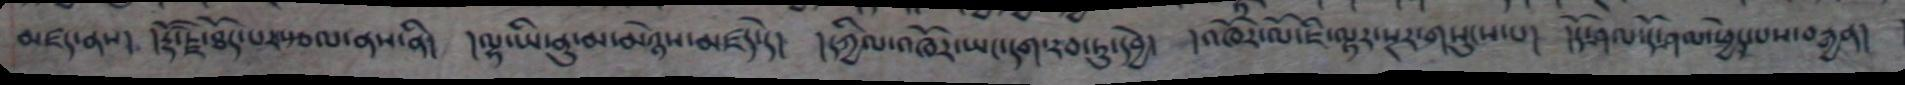མཛད་ནས། །རྡོ་རྗེ་ཐོད་པར་སྩལ་ནས་ནི། །ལྷ་ཡི་ནུ་མ་མཉེས་མཛད་དེ། །དཀྱིལ་འཁོར་ཡང་དག་རབ་ཏུ་དབྱེ། །འཁོར་ལོ་ཇི་ལྟར་སྔར་གསུངས་པ། །དོ་ཤལ་དོ་ཤལ་ཕྱེད་པས་བརྒྱན།
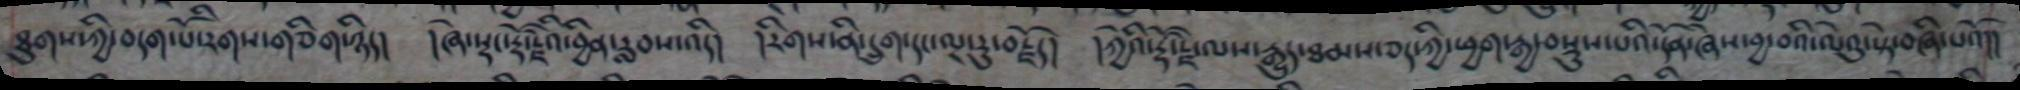ཐུགས་ཀྱི་བདག་པོ་རིགས་གཅིག་ཉིད། །ཞེ་སྡང་རྡོ་རྗེའི་བྱིན་རླབས་འདི། །རིགས་ནི་དྲུག་དང་ལྔ་རུ་བརྗོད། །ཀྱེའི་རྡོ་རྗེ་ལས་རྒྱུད་ཐམས་ཅད་ཀྱི་ཕྱག་རྒྱ་བསྡུས་པའི་དོན་ཞེས་བྱ་བའི་ལེའུ་སྟེ་བཞི་པའོ།།
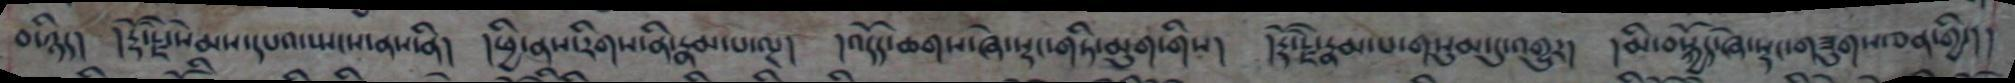བ་ཉིད། །རྡོ་རྗེ་སེམས་དཔའ་སྤངས་ནས་ནི། །ཕྱི་ནས་རིགས་ནི་རྣམ་པ་ལྔ། །འདོད་ཆགས་ཞེ་སྡང་གཏི་མུག་གིས། །རྡོ་རྗེ་རྣམ་པ་གསུམ་དུ་འགྱུར། །མི་བསྐྱོད་ཞེ་སྡང་གཟུགས་ཅན་གྱི་།།
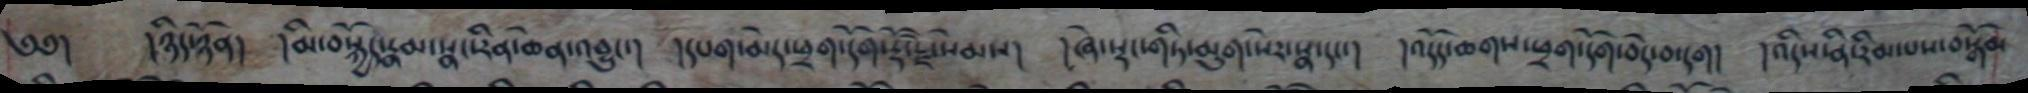༄༅། །ཉིད་ཉོན། །མི་བསྐྱོད་རྣམ་སྣང་རིན་ཆེན་འབྱུང་། །དཔག་མེད་ཕྲག་དོག་རྡོ་རྗེ་སེམས། །ཞེ་སྡང་གཏི་མུག་སེར་སྣ་དང་། །འདོད་ཆགས་ཕྲག་དོག་བདེ་བ་དག། །འདིས་ནི་རིམ་པས་བསྒོམ
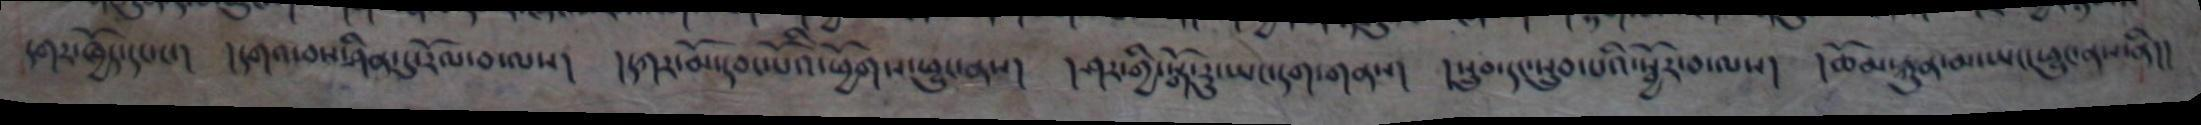དགར་ཁྱོད་དང་ང་། །དགའ་བས་ཤིན་དུ་རོལ་བ་ལས། །དཀར་མོ་དབང་པོའི་ཕྱོགས་ཕྱུང་ནས། །ཤར་གྱི་སྒོ་རུ་ཡང་དག་གནས། །སྲུབ་དང་སྲུབ་པའི་སྦྱོར་བ་ལས། །ཆོམ་རྐུན་མ་ཡང་ཕྱུང་ནས་ནི།།
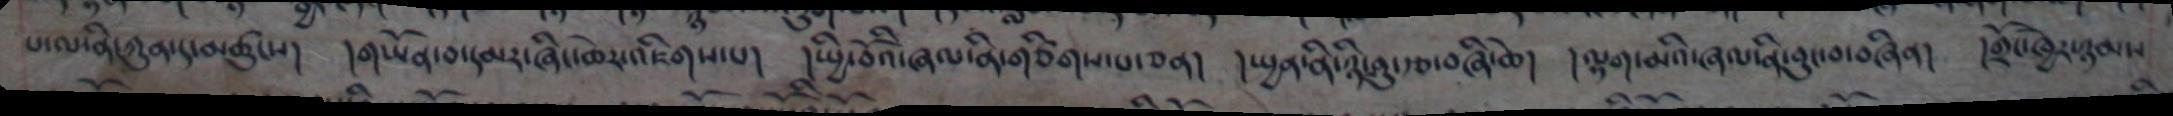པ་ལ་ནི་ཀུན་དང་མཚུངས། །གཡོན་བ་དམར་ཞིང་ཆེར་འཇིགས་པ། །སྤྱི་བོའི་ཞལ་ནི་གཙིགས་པ་ཅན། །སྤྱན་ནི་ཉི་ཤུ་རྩ་བཞི་ཆེ། །ལྷག་མའི་ཞལ་ནི་བུང་བ་བཞིན། །གྲོང་ཁྱེར་ཉམས
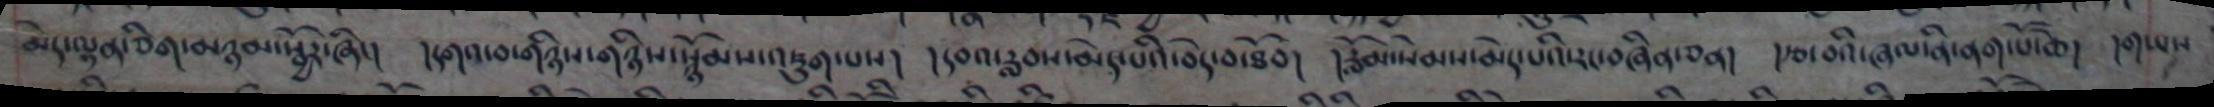མེད་ལྷན་ཅིག་མཉམ་སྦྱོར་ཞིང་། །དགའ་བ་གཉིས་སྙོམས་འཇུག་པས། །དབའ་རླབས་མེད་པའི་བདེ་བ་ཐོབ། །རློམས་སེམས་མེད་པའི་རང་བཞིན་ཅན། །རྩ་བའི་ཞལ་ནི་ནག་པོ་ཆེ། །གཡས
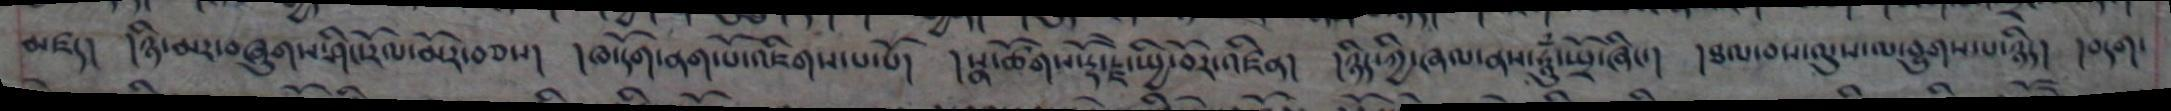མཛད། །ཉི་མར་བཞུགས་ཤིང་རོལ་མོར་བཅས། །ཁ་དོག་ནག་པོ་འཇིགས་པ་པོ། །སྣ་ཚོགས་རྡོ་རྗེ་སྤྱི་བོར་འཛིན། །ཉིད་ཀྱི་ཞལ་ནས་ཧཱུཾ་སྤྲོ་ཞིང་། །ཐལ་བས་ལུས་ལ་བྱུགས་པ་ཉིད། །བདག་
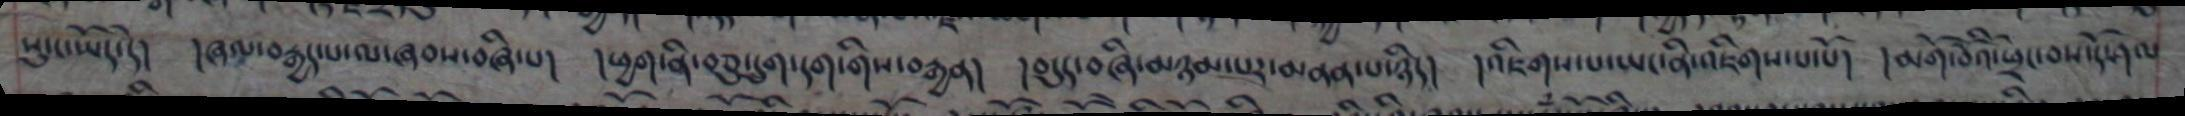སུ་ང་ཡོད་དེ། །ཞལ་བརྒྱད་པ་ལ་ཞབས་བཞི་པ། །ཕྱག་ནི་བཅུ་དྲུག་དག་གིས་བརྒྱན། །བདུད་བཞི་མཉམ་པར་མཉན་པ་ཉིད། །འཇིག་པ་ཡང་ནི་འཇིགས་པ་པོ། །མགོ་བོའི་ཕྲེང་བས་དོ་ཤལ
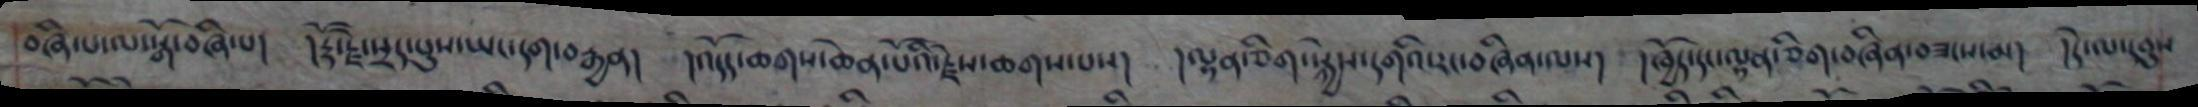བཞི་པ་ལ་སྒོ་བཞི་པ། །རོ་རྗེ་སྲད་པུས་ཡང་དག་བརྒྱན། །འདོད་ཆགས་ཆེན་པོའི་རྗེས་ཆགས་པས། །ལྷན་ཅིག་སྐྱེས་དགའི་རང་བཞིན་ལས། །ཁྱོད་དང་ལྷན་ཅིག་བཞིན་བཟངས་མ། །དེ་ལ་དབུས
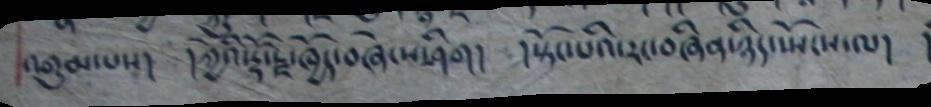འགུམ་པས། །ཀྱེའི་རྡོ་རྗེ་ཁྱོད་བཞེས་ཤིག། །སྟོང་པའི་རང་བཞིན་ཉིད་སྤོངས་ལ།
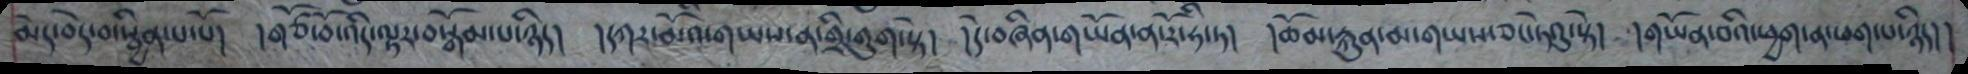མེད་བདེ་བ་སྦྱིན་པ་པོ། །གཙོ་བོ་འདི་ལྟར་བསྒོམ་པ་ཉིད། །དཀར་མོའ་གཡས་ན་གྲི་གུག་སྟེ། །དེ་བཞིན་གཡོན་ན་རོ་ཧི་ཏ། །ཆོམ་རྐུན་མ་གཡས་ཅང་ཏེའུ་སྟེ། །གཡོན་བའི་ཕྱག་ན་ཕག་པ་ཉིད།།
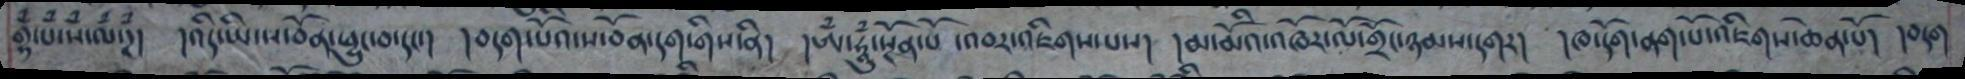གྷཾ་པཾ་སཾ་ལཾ་ཌཾ། །འདི་ཡི་ས་བོན་ཕྱུང་བ་དང་། །བདག་པོའི་ས་བོན་དངག་གིས་ནི། །ཨཾ་ཧཱུཾ་སྔོན་པོ་འབར་འཇིག་པས། །མ་མོའི་འཁོར་ལོ་གྲོང་ཉམས་དགར། །ཁ་དོག་ནག་པོ་འཇིགས་ཆེན་པོ། །བདག
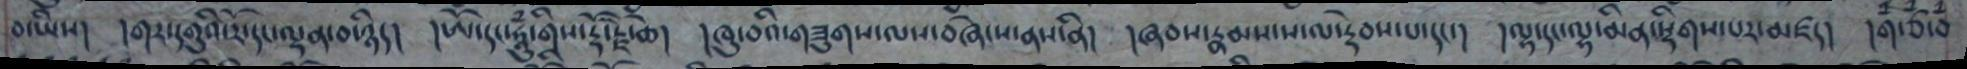བ་ཡིས། །གར་དགུའི་རོ་དང་ལྡན་བ་ཉིད། །ཨོཾ་དང་ཧཱུཾ་གིས་རྡོ་རྗེ་ཆེ། །ཁུ་བའི་གཟུགས་ལས་བཞེངས་ནས་ནི། །ཞབས་རྣམས་ས་ལ་རྡེབས་པ་དང་། །ལྷ་དང་ལྷ་མིན་སྡིགས་པར་མཛད། །གཾ་ཙཾ་བཾ
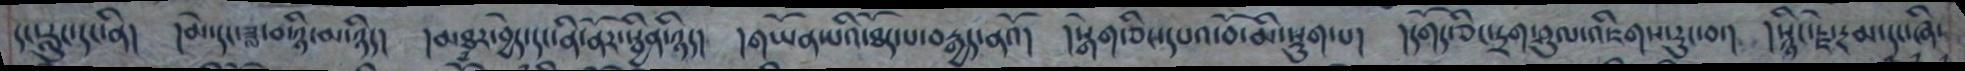དང་རླུང་དང་ནི། །མེ་དང་ཟླ་བ་ཉི་མ་ཉིད། །མཐར་བྱེད་དང་ནི་ནོར་སྦྱིན་ཉིད། །གཡོན་པའི་ཐོད་པ་བརྒྱད་ནའོ། །སྒེག་ཅིང་དཔའ་བོ་མི་སྡུག་པ། །དགོད་ཅིང་དྲག་ཤུལ་འཇིགས་རུང་བ། །སྙིང་རྗེ་རྔམ་དང་ཞི་
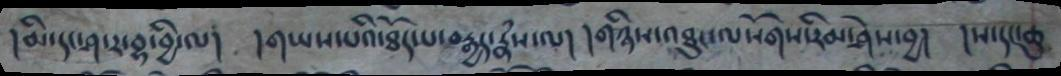།མི་དང་ཤ་ར་བྷ་བྱི་ལ། །གཡས་པའི་ཐོད་པ་བརྒྱད་རྣཾས་ལ། །གཉིས་འཐུང་ལསོགས་རིམ་ཤེས་བྱ། །ས་དང་ཆུ
